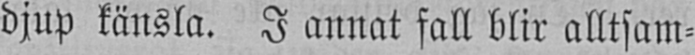djup känsla. I annat fall blir alltsam-
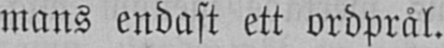mans endast ett ordprål.
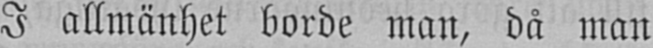I allmänhet borde man, då man
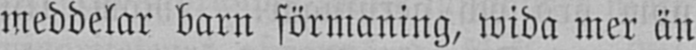meddelar barn förmaning, wida mer än
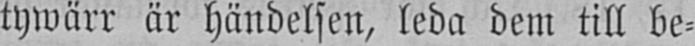tywärr är händelsen, leda dem till be-
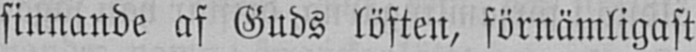sinnande af Guds löften, förnämligast
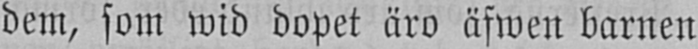dem, som wid dopet äro äfwen barnen
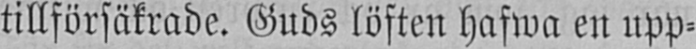tillförsäkrade. Guds löften hafwa en upp-
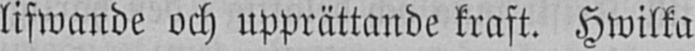lifwande och upprättande kraft. Hwilka
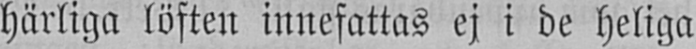härliga löften innefattas ej i de heliga
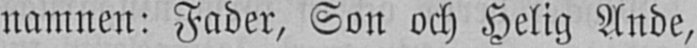namnen: Fader, Son och Helig Ande,
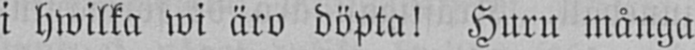i hwilka wi äro döpta! Huru många
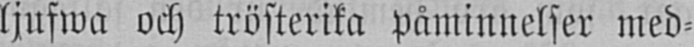ljufwa och trösterika påminnelser med-
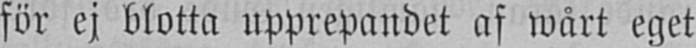för ej blotta upprepandet af wårt eget
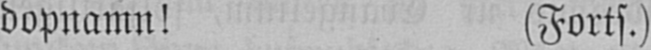dopnamn! (Forts.)
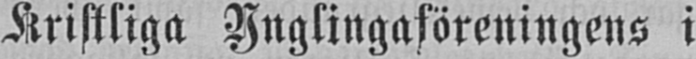Kristliga Ynglingaföreningens i
